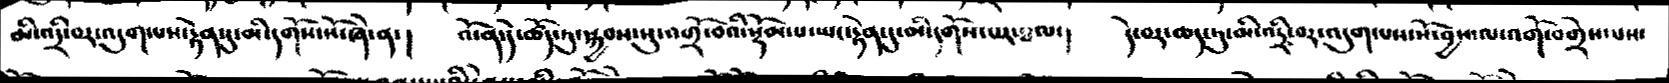མི་འདྲི་བར་འདུག་པས་རྟེན་དུ་མི་དགོས་སོ་ཞེ་ན་།   འོ་ན་དེ་ཚོད་ཏུ་སྐྱབས་སུ་འགྲོ་བའི་སྡོམ་པ་ཡང་རྟེན་དུ་མ་དགོས་པར་ཐལ་།   དེ་བར་ཆད་ཏུ་མི་འདྲི་བར་འདུག་པས་སོ་བྱས་ལ་འགོ་བགྲེས་པས་
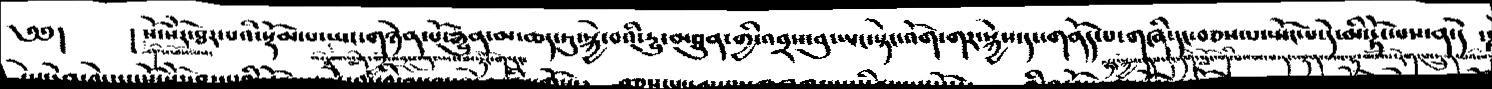༄༅།  ། སོ་སོར་ཐར་པའི་སྡོམ་པ་ཡང་གཉེན་པོ་རྒྱུན་མ་ཆད་ཏུ་སྐྱེ་བའི་རྒྱུ་མཐུན་གྱི་འབྲས་བུ་ཡང་སྟེང་འོག་གར་སྐྱེས་དང་གནོད་པ་གཞི་དང་བཅས་པ་སྤོང་པ་དེ་མི་རྟོང་པས་ན་དེ   ་
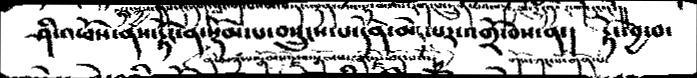ཤི་འཕོས་ནས་རྟོང་ན་སྡོམ་པ་བསྲུངས་པ་དོན་མེད་པར་འགྲོ་བས་ན་།  རྟོ་དབྱ་བ་
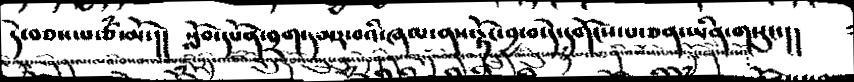དེ་བཅས་པ་ཙཾ་མོ་།།  སློབ་དཔོན་བྲག་དམར་བའི་ཞལ་ནས་ལྟོང་བྱ་བ་དེ་དགོངས་པ་ཅན་ཡིན་གསུང་།།
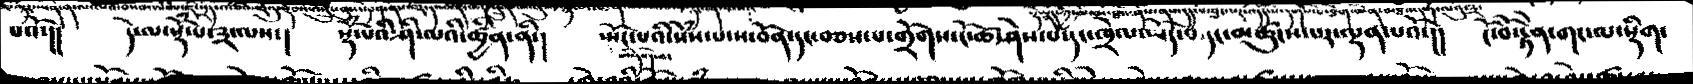པའོ་།།  དེ་ལ་སྡོཾ་པ་༣་ལས་།  སྡོཾ་པའི་ཤི་ལའི་ཆྱིན་ནི་།  སྤོང་པའི་སེཾས་པ་ས་བོན་དང་བཅས་པ་གྲོགས་ངོ་ཚ་ཤེས་པ་དང་ཁྲལ་ཡོད་བ་དང་མཚུངས་པར་ལྡན་པའོ་།།  ངོ་བོ་རྟེན་གང་ལ་སྡིག་
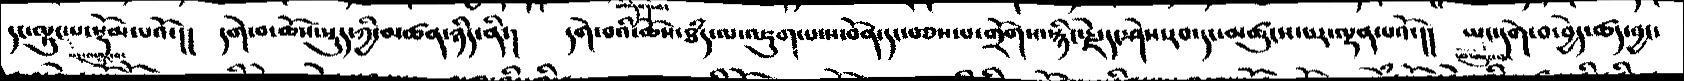དང་ལྟུང་པ་སྡོམ་པའོ་།།  དགེ་བ་ཆོས་སྡུད་ཀྱི་མཚན་ཉིད་ནི་།  དགེ་བའི་ཆོས་ཐཾད་ལ་འཇུག་པ་ས་བོན་དང་བཅས་པ་གྲོགས་སྙིང་རྗེ་དང་ཤེས་རབ་དང་མཚུངས་པར་ལྡན་པའོ་།།  ཡང་དགེ་བ་བྱེད་ཚད་བྱང་
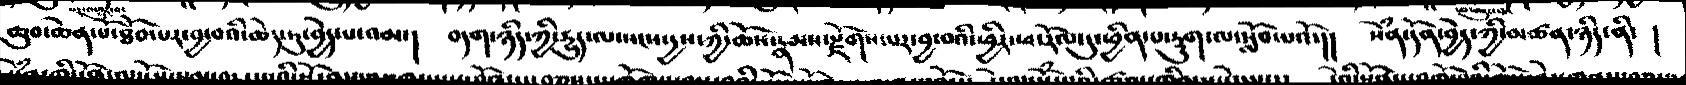ཆུབ་ཆེན་པོ་ཐོབ་པར་བྱ་བའི་ཆེད་ཏུ་བྱེད་པ་འམ།  བདག་ཉིད་ཀྱི་རྒྱུད་ལ་སངས་དྱས་ཀྱི་ཆོས་རྣམས་རྫོགས་པར་བྱ་བའི་ཕྱིར་ཕ་རོལ་དུ་ཕྱིན་པ་ཏུག་ལ་སློབ་པའོ་།།  སེཾན་དོན་བྱེད་ཀྱི་མཚན་ཉིད་ནི་   །
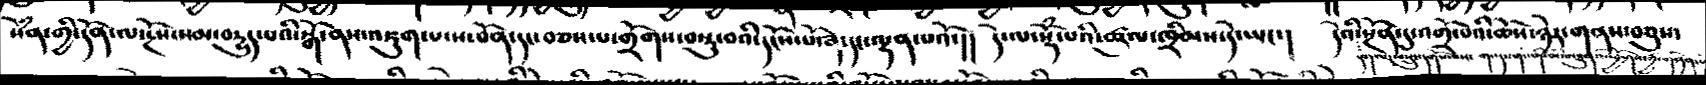སེཾན་གྱི་དོན་ལ་རྔོས་སམ་བརྒྱུད་པའི་སྒོ་ནས་འཇུག་པ་ས་བོན་དང་བཅས་པ་གྲོགས་བསྡུ་བའི་དངོས་པོ་ཞེ་དང་ལྡན་པའོ་།།  དེ་ལ་སྡོཾ་པའི་ཚུལ་ཁྲིམས་དེ་ཡང་།  དེའི་སྔོན་དུ་འགྲོ་བའི་ཆོས་ཉེར་གནས་བཅུས་
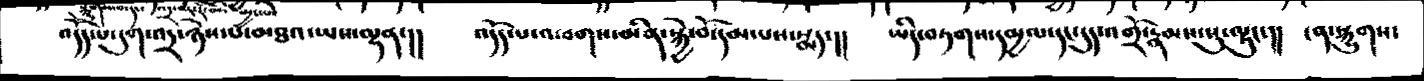འདོད་པ་དུག་འདྲེ་ཉེས་པ་མཐའ་ཡས་ལྟན་།།   འདོད་པ་འ་བགས་མིན་སྐྱེ་བོ་དམ་པས་སྨད་།།   ཡིད་བཏགས་དམྱལ་དང་དུད་འགྲོ་རྣམས་སུ་ལྷུང་།།   ངན་སྐུགས་
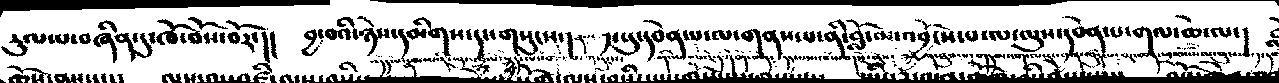རུལ་པ་བཞིན་དུ་ཁོ་བོས་བོར་།།  བྱ་བའི་ཉེས་དམིགས་དང་གསུངས་།  ད་བུ་དབེན་པ་ལ་གནས་པ་ནི་བློ་མ་འབྱོངས་པ་ལ་ལུས་དབེན་པ་གལ་ཆེ་ལ་།
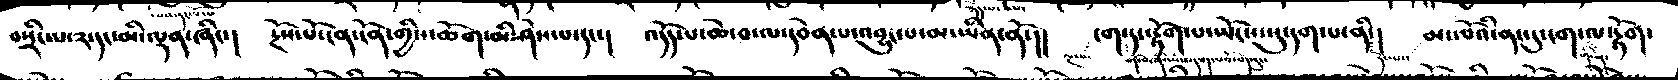བསྲིང་པ་༢་དང་མི་ལྡན་ཞིང་།  རྔོས་པོ་ངན་ངོན་གྱིས་ཆོག་མི་ཤེས་པ་དང་།  འདོད་པ་ཆེ་བ་ལ་དབེན་པ་འབྱུང་པ་མ་ཡིན་ནོ་།།  ངག་ད་རྟོག་པ་ཡོངས་སུ་དག་པ་ནི་།  མང་པོའི་ནང་དུ་ག་ལ་རྟོག་
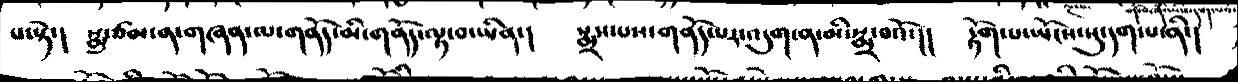པ་སྟེ་།   སྨྲ་ཙམ་ན་གཞན་ལ་གནོད་མི་གནོད་ལྟ་བ་ཡིན་།   སྨྲས་པས་གནོད་པར་འདུག་ན་མི་སྨྲ་བའོ་།།   རྟོག་པ་ཡོངས་སུ་དག་པ་ནི་།
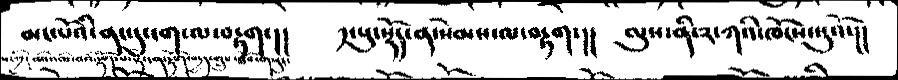མང་པོའི་ནང་དུ་ག་ལ་བརྟག་།།  ད་པུ་སྟོད་ན་སེམས་ལ་བརྟག་།།  ལུས་ནི་༢་ཀའི་ཁོངས་སུའོ་།།
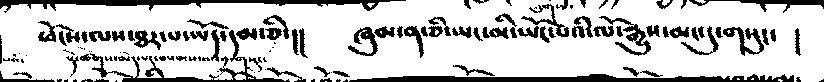ཕོངས་ལས་ཐར་པ་ཡོད་དམ་ཅི་།།   ཞུས་ན་ཅི་ཡང་མི་ཡོང་པའི་ལོ་རྒྱུས་མང་དུ་གསུང་  །
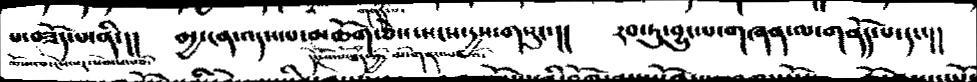པ་བཟོད་པ་ནི་།།  མྱ་ངན་འདས་པ་མཆོག་ཅེས་སངས་དྱས་གསུང་།།  རབ་ཏུ་བྱུང་པ་གཞན་ལ་གནོད་པ་དང་།།
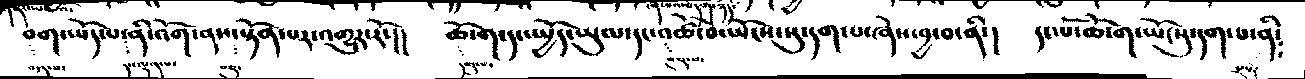བག་ཡོད་པ་ནི་འོག་ནས་སྟོན་པར་འགྱུར་རོ་།།  ཆོ་ད་དང་སྤྱོད་ཡུལ་དང་འཚོ་བ་ཡོངས་སུ་དག་པ་ཞེས་བྱ་བ་ནི་།  དང་པོ་ཆོ་ག་ཡོངསསུ་དག་པ་ནི་
